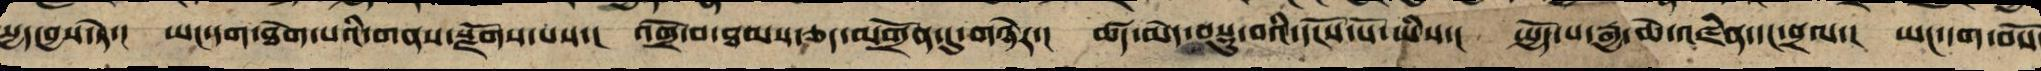པྱད་བྱས་ཏེ་། ཡང་དག་ཐེག་པའི་གནས་སྫོགས་པས་། འགྲོ་བ་ཐམས་ཅད་མགྲོན་དུ་གཉེར་། ཚད་མེད་བསྡུ་བའི་དངོས་པོ་ཡིས་། སྤྱོད་པ་རྒྱ་ཆེ་འཛིན་དང་བྲལ་། ཡང་དག་བསོ
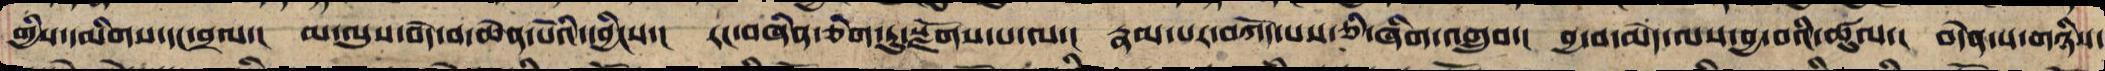གྱིས་དམིགས་དང་བྲལ་། མ་ལུས་བདེ་བ་ཆེན་པོའི་དབྱིངས་། རང་བཞིན་གཅིག་ཏུ་སྫོགས་པ་ལ་། རྣམ་པར་བཀོད་པས་ཅི་ཞིག་འགྲུབ་། བྱ་བ་མེད་ལས་བྱ་བའི་ཚུལ་། བདེན་པ་གཉིས་
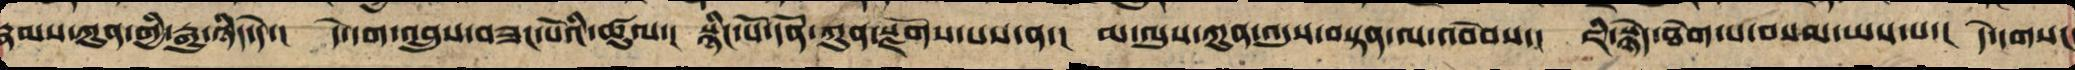རྣམས་ཀུན་གྱི་རྒྱུ་ཉིད་དེ་། དེ་དག་འབྲས་བུ་བཟང་པོའི་ཚུལ་། སྙིང་པོའི་དོན་ཀུན་སྫོགས་པས་ན་། མ་ལུས་ཀུན་འདུས་གཏན་ལ་འབེབས་། ཇི་སྙེད་ཐེག་པ་བསམ་ཡས་པ་། དེ་དག་གསང་
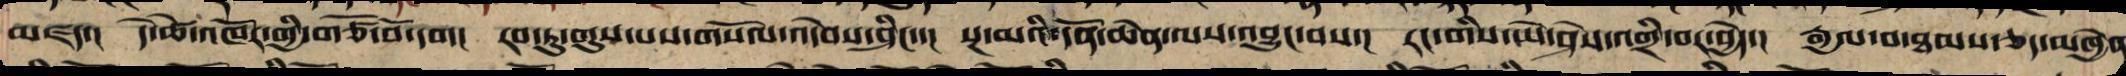མཛད་། དེ་ཚེ་འཁོར་གྱི་གཙོ་བོ་དག། རབ་ཏུ་གུས་པས་གསོལ་འདེབས་ཤིང་་། སྔ་མའི་དོན་ཆེན་ལས་འབྱུང་བས་། རང་གི་ཡེ་ཤེས་འགྲི་བར་བྱེད་། རྒྱལ་བ་ཐམས་ཅད་མཁྱེན
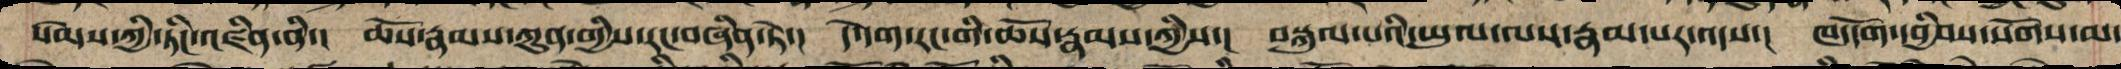སེམས་ཀྱི་ཏིང་འཛིན་ནི་། ཆོས་རྣམས་ཀུན་གྱི་རང་བཞིན་ཏེ་། དེ་དག་རང་གི་ཆོས་རྣམས་ཀྱིས་། བསྐུལ་བའི་ཡུལ་ལས་རྣམ་པར་འདས་། ཁ་དོག་དབྱིབས་སོགས་མ་
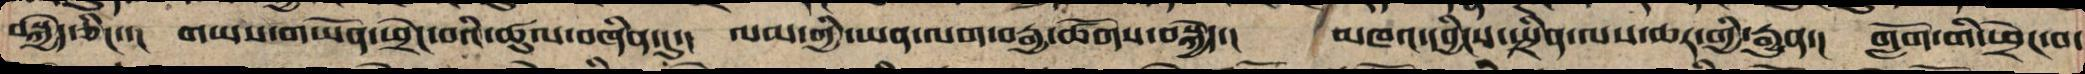བསྐྱེད་ཅིང་་། གཡས་གཡོན་ཕྲེང་བའི་ཚུལ་བཞིན་དུ་། ལམ་གྱི་ཡན་ལག་བརྒྱ་ཚོགས་བསྐྱེད་།  མཁའ་དབྱིངས་སྤྲིན་ལས་ཆར་གྱི་རྒྱུན་། གློག་གི་ཕྲེང་བ་
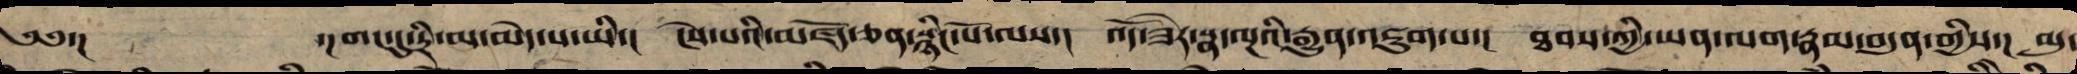༄༅་། ་།གང་དུ་དྲི་མ་མེད་པ་ཡི་། ངེས་པའི་མཛོད་ཅན་སྙིང་པོ་ལས་། འོད་ཟེར་སྣ་ལྔའི་རྒྱུན་འཇུག་པ་། ཐབས་ཀྱི་ཡན་ལག་རྣམ་བདུན་གྱིས་། མུ་
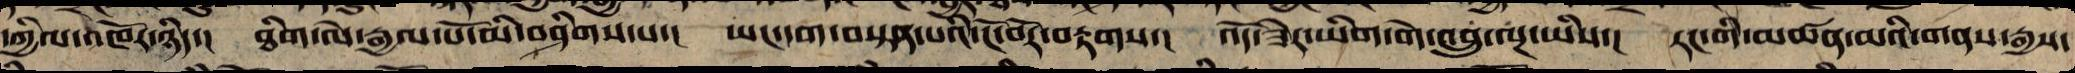དཀྱིལ་འཁོར་ཉིད་། ཐིག་ལེ་རྒྱལ་པོ་མི་ཤིགས་པ་། ཡང་དག་བསྟན་པའི་ངོ་བོར་བརྟགས་། འོད་ཟེར་ཡི་གེ་འབྲུ་ལྔ་ཡིས་། རང་གི་མཚན་མའི་གནས་རྒྱས་
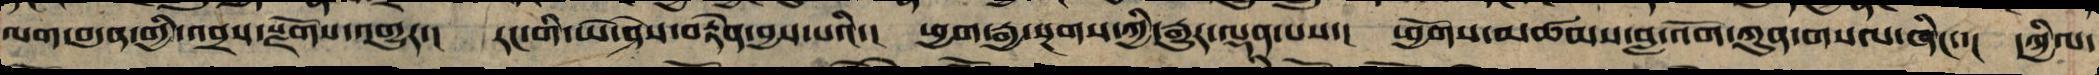ལག་བདུན་གྱི་འབྲས་སྫོགས་འགྱུར་། རང་གི་ཡེ་ཤེས་བརྟེན་བྱས་པའི་། ཕྱག་རྒྱ་སྔགས་ཀྱི་རྒྱུར་ལྡན་པས་། ཕྱོགས་མཚམས་བླ་འོག་ཀུན་གསལ་ཞིང་་། དཀྱིལ་
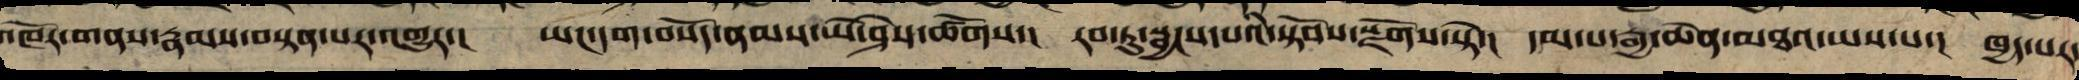འཁོར་གནས་རྣམས་བསྟན་པར་འགྱུར་། ཡང་དག་བསོད་ནམས་ཡེ་ཤེས་ཚོགས་། རབ་ཏུ་སྦྱངས་པའི་སྟོབས་སྫོགས་སྟེ་། དམ་པ་རྒྱ་ཆེན་མཐའ་ཡས་པ་། ཁྱད་པར་
